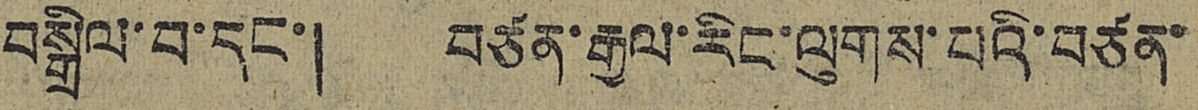བསྒྲིལ་བ་དང་། བཙན་རྒྱལ་རིང་ལུགས་པའི་བཙན་
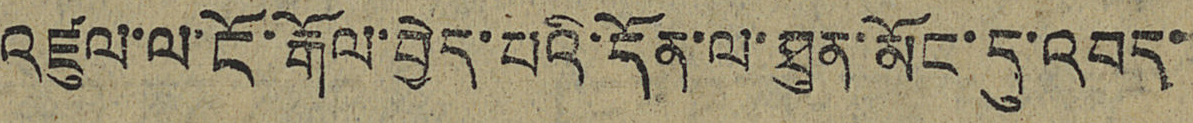འཛུལ་ལ་ངོ་རྒོལ་བྱེད་པའི་དོན་ལ་ཐུན་མོང་དུ་འབད་
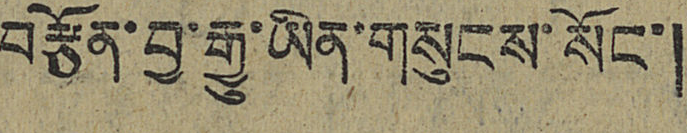བརྩོན་བྱ་རྒྱུ་ཡིན་གསུངས་སོང་།
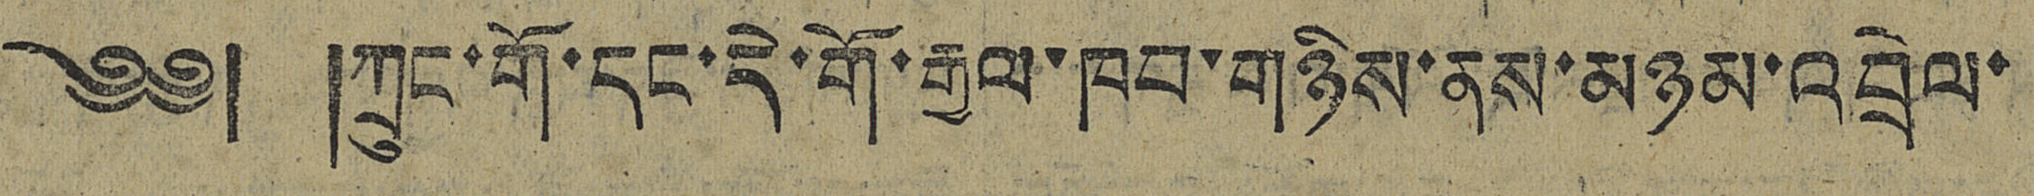༄༅། །ཀྲུང་གོ་དང་དེ་གོ་རྒྱལ་ཁབ་གཉིས་ནས་མཉམ་འབྲེལ་
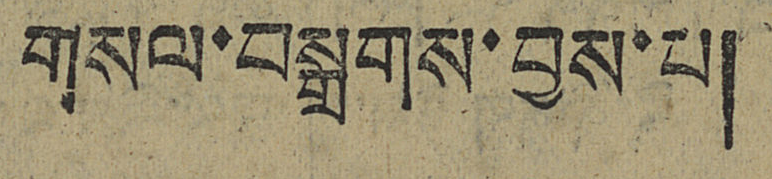གསལ་བསྒྲགས་བྱས་པ།
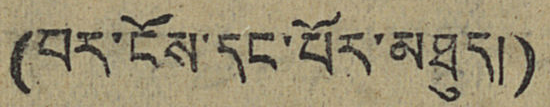(པར་ངོས་དང་པོར་མཐུད།)
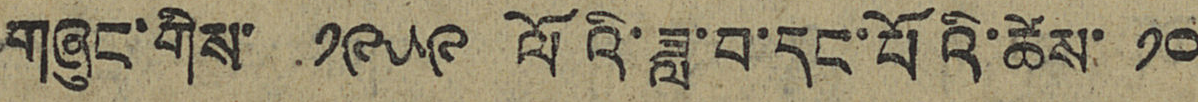གཞུང་གིས་ ༡༩༥༩ ལོའི་ཟླ་བ་དང་པོའི་ཚེས་ ༡༠
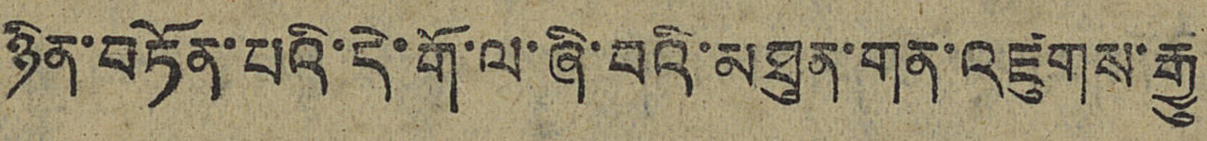ཉིན་བཏོན་པའི་དེ་གོ་ལ་ཞི་བའི་མཐུན་གན་འཛུགས་རྒྱུ
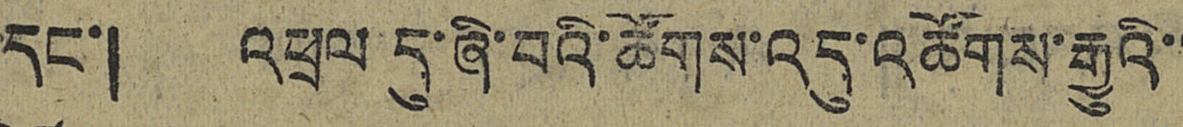དང་། འཕྲལ་དུ་ཞི་བའི་ཚོགས་འདུ་འཚོགས་རྒྱུའི་་
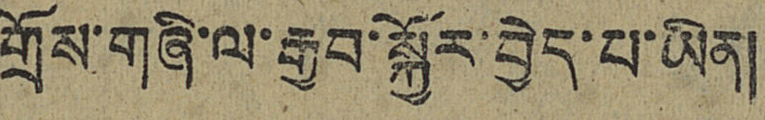གྲོས་གཞི་ལ་རྒྱབ་སྐྱོར་བྱེད་པ་ཡིན།
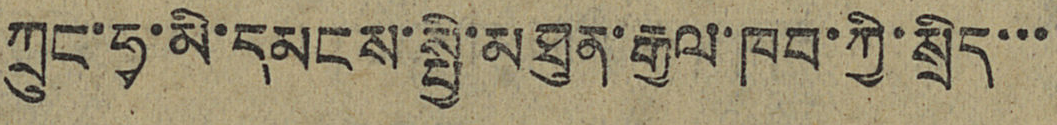ཀྲུང་ཧྭ་མི་དམངས་སྤྱི་མཐུན་རྒྱལ་ཁབ་ཀྱི་སྲིད་་་
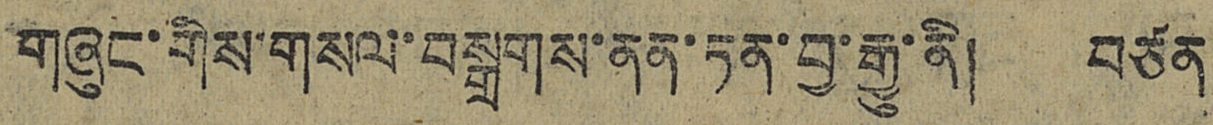གཞུང་གིས་གསལ་བསྒྲགས་ནན་ཏན་བྱ་རྒྱུ་ནི། བཙན
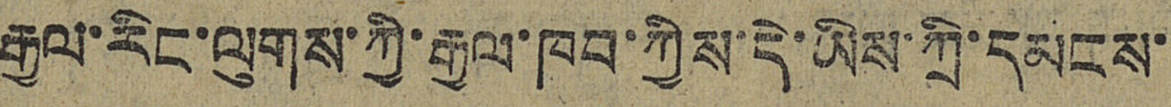རྒྱལ་རིང་ལུགས་ཀྱི་རྒྱལ་ཁབ་ཀྱིས་དེ་ཡིས་ཀྲི་དམངས་་
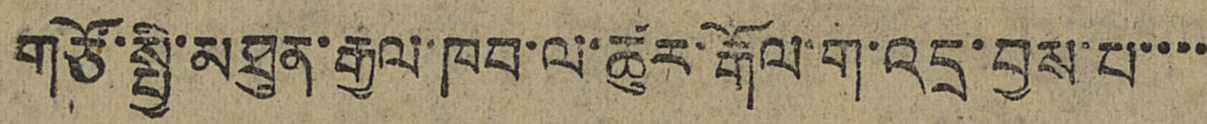གཙོ་སྤྱི་མཐུན་རྒྱལ་ཁབ་ལ་ཚུར་རྒོལ་ག་འདྲ་བྱས་པ་་་་
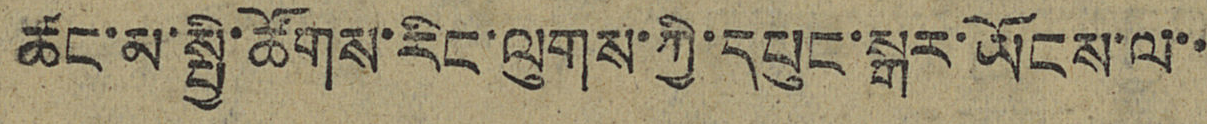ཚང་མ་སྤྱི་ཚོགས་རིང་ལུགས་ཀྱི་དཔུང་སྒར་ཡོངས་ལ་་
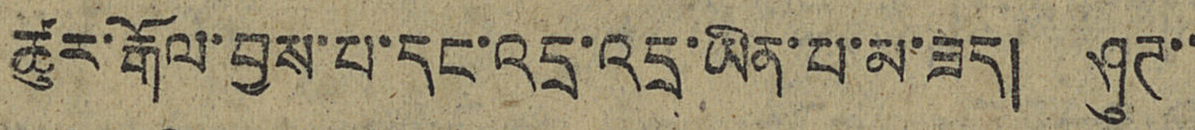ཚུར་རྒོལ་བྱས་པ་དང་འདྲ་འདྲ་ཡིན་པ་མ་ཟད། ཤུཊ་་
